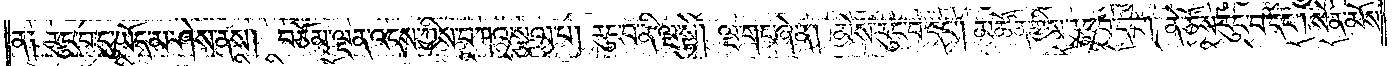ན༑ རུང་བ་དུ་ཡོད་མ་ཤེས་ནས། བཅོམ་ལྡན་འདས་ཀྱིས་བཀའ་སྩལ་པ། རུང་བ་ནི་ལྔ་སྟེ། ལྔ་གང་ཞེ་ན། མེས་རུང་བ་དང༌། མཚོན་གྱིས་རུང་བ་དང༌། ནེ་ཙོས་རུང་བ་དང༌། སེན་མོས་
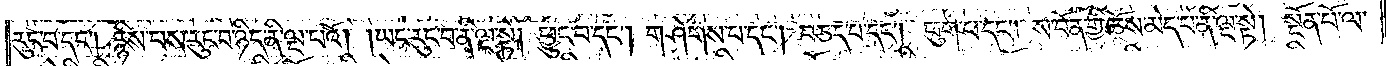རུང་བ་དང༌། རྙིས་པས་རུང་བ་ཉིད་ནི་ལྔ་པའོ། །ཡང་རུང་བ་ནི་ལྔ་སྟེ། ཕྱུང་བ་དང༌། གཤེགས་པ་དང༌། བཅད་པ་དང༌། ཕུག་པ་དང༌། ས་བོན་གྱི་ཆོས་མེད་པ་ནི་ལྔ་སྟེ། སྔོན་པོ་ལ་
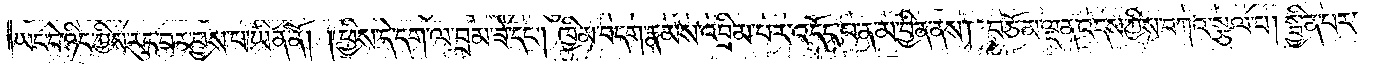ཡང་དེ་ཉིད་ཀྱིས་རུང་བར་བྱས་པ་ཡིན་ནོ། །ཕྱིས་དེ་དག་ལ་བྲམ་ཟེ་དང༌། ཁྱིམ་བདག་རྣམས་འབྲིམ་པར་འདོད་པ་ན་མ་བྱིན་ནས། བཅོམ་ལྡན་འདས་ཀྱིས་བཀའ་སྩལ་པ། སྦྱིན་པར་
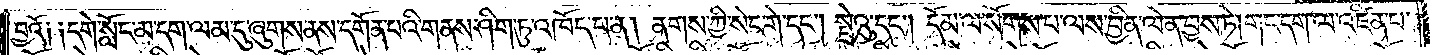བྱའོ༑ ༑དགེ་སློང་མ་དག་ལམ་དུ་ཞུགས་ནས་དགོན་པའི་གནས་ཤིག་ཏུ་འཁོད་པ་ན། ནགས་ཀྱི་སེང་གེ་དང༌། སྤྲེའུ་དང༌། དོམ་ལ་སོགས་པ་ལས་བྱིན་ལེན་བྱས་ཏེ། གང་དག་ལ་འཛིན་པ་
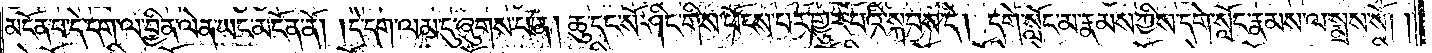མངོན་པ་དེ་དག་ལ་བྱིན་ལེན་ཡང་མངོན་ནོ། །དེ་དག་ལམ་དུ་ཞུགས་པ་ན། ཆུ་དང་སོ་ཤིག་གིས་ཕོངས་པར་གྱུར་པའི་སྐབས་ཏེ། དགེ་སློང་མ་རྣམས་ཀྱིས་དགེ་སློང་རྣམས་ལ་སྨྲས་སོ། །
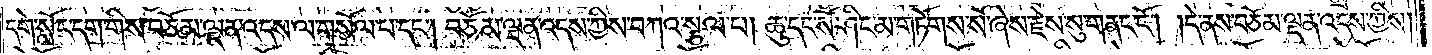དགེ་སློང་དག་གིས་བཅོམ་ལྡན་འདས་ལ་གསོལ་པ་དང༌། བཅོམ་ལྡན་འདས་ཀྱིས་བཀའ་སྩལ་པ། ཆུ་དང་སོ་ཤིང་མ་གཏོགས་སོ་ཞེས་རྗེས་སུ་གནང་ངོ༌། །དེ་ནས་བཅོམ་ལྡན་འདས་ཀྱིས་
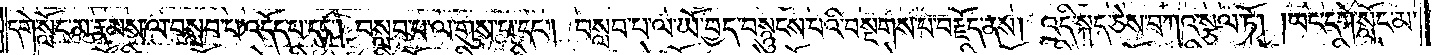དགེ་སློང་མ་རྣམས་ལ་བསླབ་པ་འདོད་པ་དང༌། བསླབ་པ་ལ་གུས་པ་དང༌། བསླབ་པ་ལ་ཡོ་བྱད་བསྙུངས་པའི་བསྔགས་པ་བརྗོད་ནས། འདི་སྐད་ཅེས་བཀའ་སྩལ་ཏོ། །ཡང་དགེ་སློང་མ་
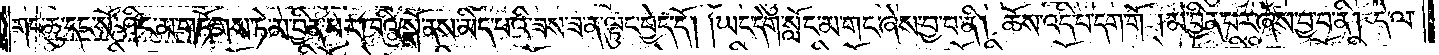གང་ཆུ་དང་སོ་ཤིང་མ་གཏོགས་ཏེ་མ་བྱིན་པར་ཁའི་སྒོ་ནས་མིད་པའི་ཟས་ཟ་ན་ལྟུང་བྱེད་དོ། །ཡང་དགེ་སློང་མ་གང་ཞེས་བྱ་བ་ནི། ཆོས་འདི་པ་དག་གོ །མ་བྱིན་པར་ཞེས་བྱ་བ་ནི། དེ་ལ་
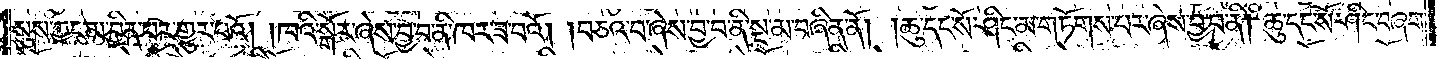སུས་ཀྱང་མ་བྱིན་པར་གྱུར་པའོ། །ཁའི་སྒོར་ཞེས་བྱ་བ་ནི་ཁར་ཟ་བའོ། །བཅའ་བ་ཞེས་བྱ་བ་ནི་སྔ་མ་བཞིན་ནོ། །ཆུ་དང་སོ་ཤིང་མ་གཏོགས་པར་ཞེས་བྱ་བ་ནི། ཆུ་དང་སོ་ཤིང་བཞག་
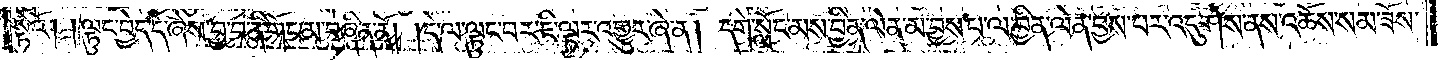སྟེའོ། །ལྟུང་བྱེད་དོ་ཞེས་བྱ་བ་ནི་གོང་མ་བཞིན་ནོ། །དེ་ལ་ལྟུང་བར་ཇི་ལྟར་འགྱུར་ཞེ་ན། དགེ་སློང་མས་བྱིན་ལེན་མ་བྱས་པ་ལ་བྱིན་ལེན་བྱས་པར་འདུ་ཤེས་ནས་འཆོས་སམ་ཟོས་
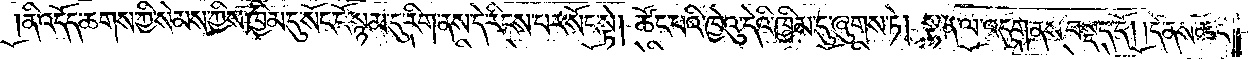ནི་འདོད་ཆགས་ཀྱི་སེམས་ཀྱིས་ཁྱིམ་དུ་སོང་ངོ་སྙམ་དུ་རིག་ནས་དེ་རིངས་པར་སོང་སྟེ། ཚོང་པའི་ཁྱེའུ་དེའི་ཁྱིམ་དུ་ཞུགས་ཏེ། སྟན་ལ་འདུག་ནས་བསྡད་དོ། །དེ་ནས་ཚོང་
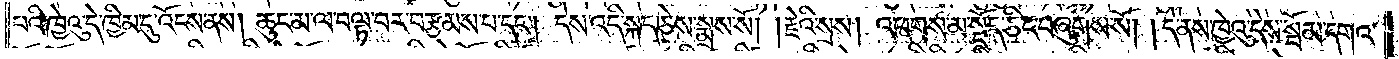བའི་ཁྱེའུ་དེ་ཁྱིམ་དུ་འོངས་ནས། ཆུང་མ་ལ་བལྟ་བར་བརྩམས་པ་དང༌། དེས་འདི་སྐད་ཅེས་སྨྲས་སོ། །རྗེའི་སྲས། འཕགས་མ་སྡོད་ཅིང་བཞུགས་སོ། །དེ་ནས་ཁྱེའུ་དེས་སྦོམ་དགའ་
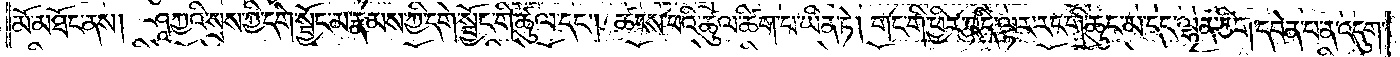མོ་མཐོང་ནས། ཤཱཀྱའི་སྲས་ཀྱི་དགེ་སྦྱོང་མ་རྣམས་ཀྱི་དགེ་སྦྱོང་གི་ཚུལ་དང༌། ཚངས་པའི་ཚུལ་ཚིག་པ་ཡིན་ཏེ། གང་གི་ཕྱིར་འདི་ལྟར་རང་གི་ཆུང་མ་དང་ལྷན་ཅིག་དབེན་པ་ན་འདུག་
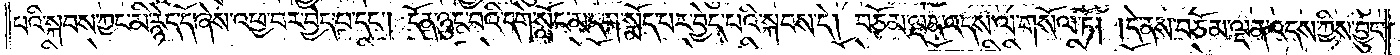པའི་སྐབས་ཀྱང་མི་རྙེད་དོ་ཞེས་འཕྱ་བར་བྱེད་པ་དང༌། དོན་ཉུང་བའི་དགེ་སློང་མ་དག་སྨོད་པར་བྱེད་པའི་སྐབས་དེ། བཅོམ་ལྡན་འདས་ལ་གསོལ་ཏོ། །དེ་ནས་བཅོམ་ལྡན་འདས་ཀྱིས་བྱུང་
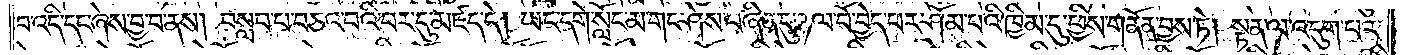བ་འདི་དང་ཞེས་བྱ་བ་ནས། བསླབ་པ་བཅའ་བའི་བར་དུ་མཛད་དེ། ཡང་དགེ་སློང་མ་གང་ཤེས་བཞིན་དུ་ཉལ་བོ་བྱེད་པར་ཤོམ་པའི་ཁྱིམ་དུ་ཕྱིས་གནོན་བྱས་ཏེ། སྟན་ལ་འདུག་པར་
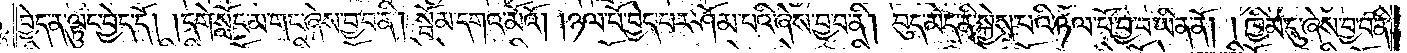བྱེད་ན་ལྟུང་བྱེད་དོ། །དགེ་སློང་མ་གང་ཞེས་བྱ་བ་ནི། སྦོམ་དགའ་མོའོ། །ཉལ་པོ་བྱེད་པར་ཤོམ་པའི་ཞེས་བྱ་བ་ནི། བུད་མེད་ནི་སྐྱེས་པའི་ཉལ་པོ་བྱ་བ་ཡིན་ནོ། །ཁྱིམ་དུ་ཞེས་བྱ་བ་ནི།
